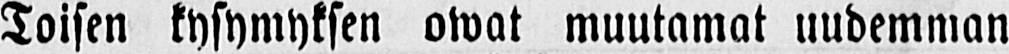Toisen kysymyksen owat muutamat uudemman
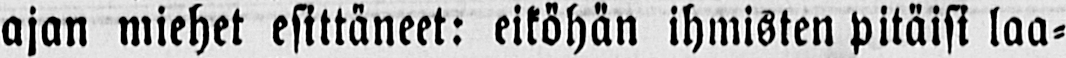ajan miehet esittäneet: eiköhän ihmisten pitäisi laa-
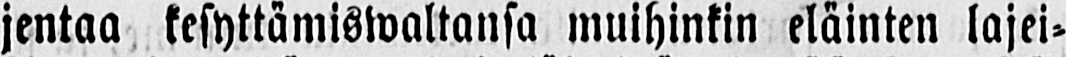jentaa kesyttämiswaltansa muihinkin eläinten lajei-
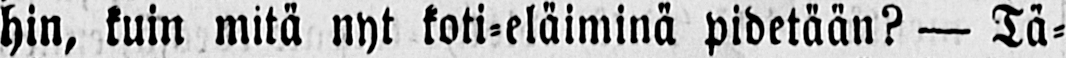hin, kuin mitä nyt koti-eläiminä pidetään? — Tä-
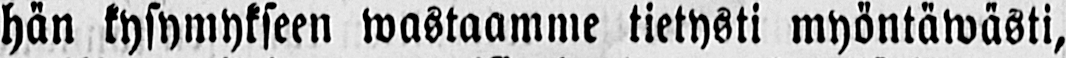hän kysymykseen wastaamme tietysti myöntäwästi,
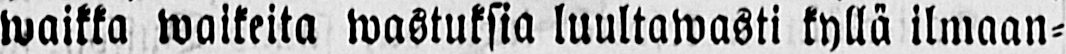waikka waikeita wastuksia luultawasti kyllä ilmaan-
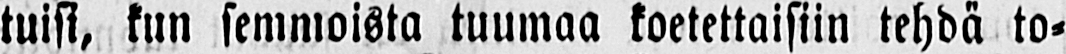tuisi, kun semmoista tuumaa koetettaisiin tehdä to-
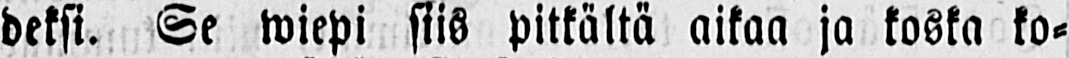deksi. Se wiepi siis pitkältä aikaa ja koska ko-
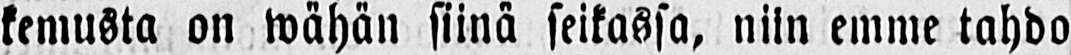kemusta on wähän siinä seikassa, niin emme tahdo
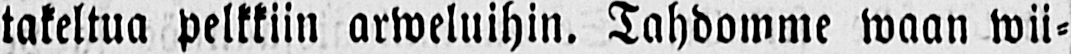takeltua pelkkiin arweluihin. Tahdomme waan wii-
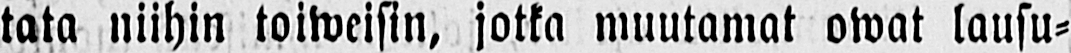tata niihin toiweisin, jotka muutamat owat lausu-
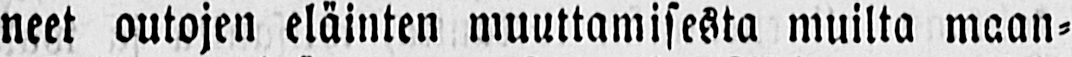neet outojen eläinten muuttamisesta muilta maan-
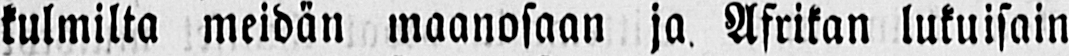kulmilta meidän maanosaan ja. Afrikan lukuisain
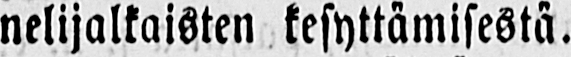nelijalkaisten kesyttämisestä.
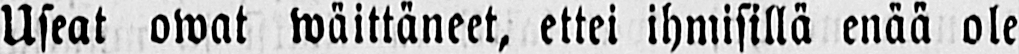Useat owat wäittäneet, ettei ihmisillä enää ole
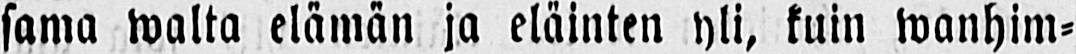sama walta elämän ja eläinten yli, kuin wanhim-
